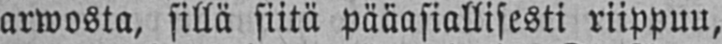arwosta, sillä siitä pääasiallisesti riippuu,
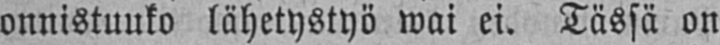onnistuuko lähetystyö wai ei. Tässä on
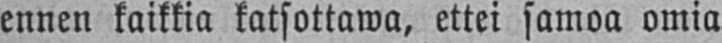ennen kaikkia katsottawa, ettei samoa omia
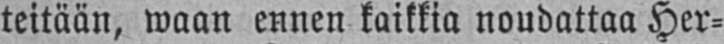teitään, waan ennen kaikkia noudattaa Her-
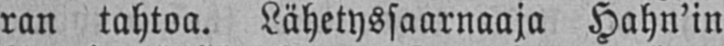ran tahtoa. Lähetyssaarnaaja Hahn'in
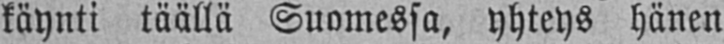käynti täällä Suomessa, yhteys hänen
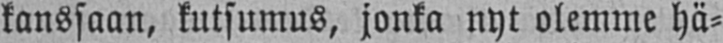kanssaan, kutsumus, jonka nyt olemme hä-
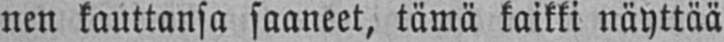nen kauttansa saaneet, tämä kaikki näyttää
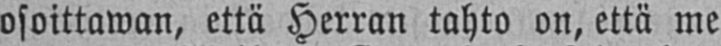osoittawan, että Herran tahto on, että me
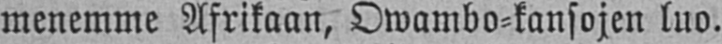menemme Afrikaan, Owambo-kansojen luo.
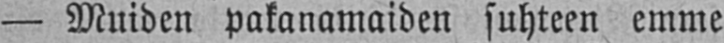— Muiden pakanamaiden suhteen emme
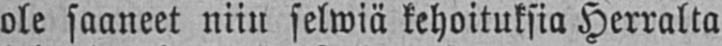ole saaneet niin selwiä kehoituksia Herralta
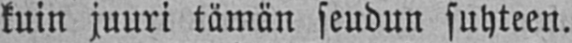kuin juuri tämän seudun suhteen.
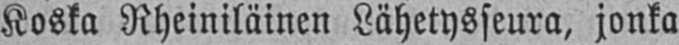Koska Rheiniläinen Lähetysseura, jonka
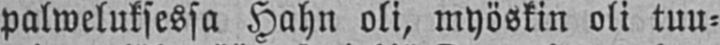palweluksessa Hahn oli, myöskin oli tuu-
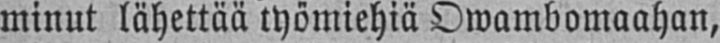minut lähettää työmiehiä Owambomaahan,
